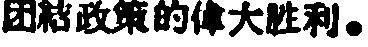团結政策的偉大胜利。
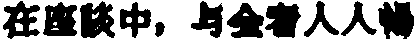在座談中，自全省人人暢
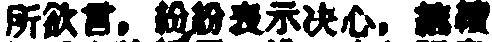所欲言，紛紛表示决心，継續
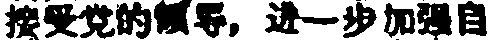接受党的領等，进一步加強自
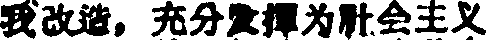我改造，充分发揮为社会主义
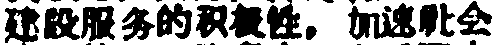建設服务的积极性，加速社会
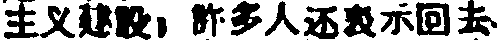主义建設，許多人还表示回去
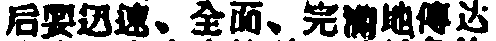后要迅速、全面、完滿地傳达
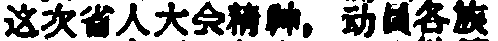这次省人大会精神，动員各族
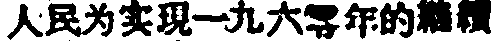人民为实現一九六零年的継續
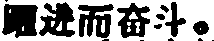躍进而奋斗。
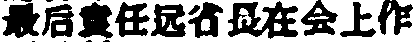最后袁任远省長在会上作
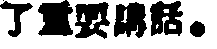了重要講話。
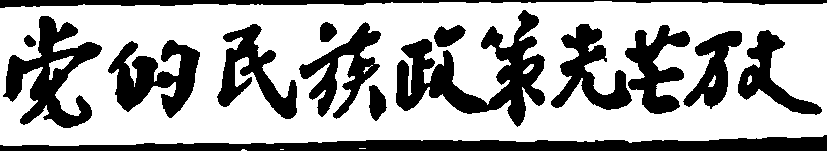党的民族政策光芒万丈
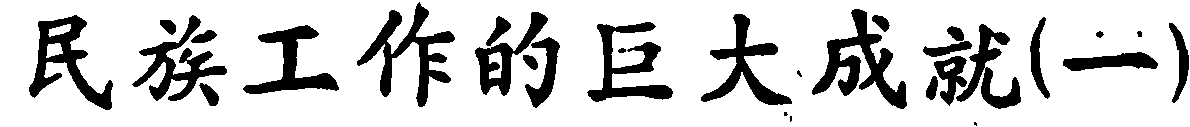民族工作的巨大成就（一）
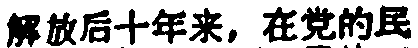解放后十年来，在党的民
